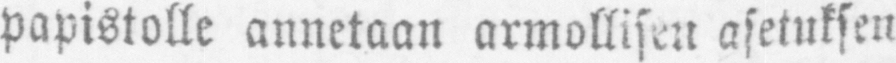papistolle annetaan armollisen asetuksen
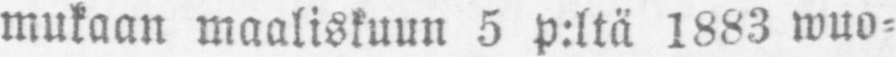mukaan maaliskuun 5 p:ltä 1883 wuo-
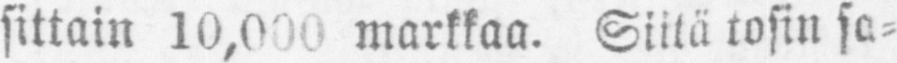sittain 10,000 markkaa. Siitä tosin sa-
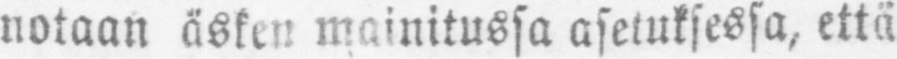notaan äsken mainitussa asetuksessa, että
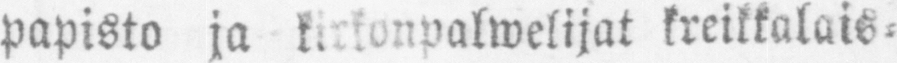papisto ja kirkonpalwelijat kreikkalais-
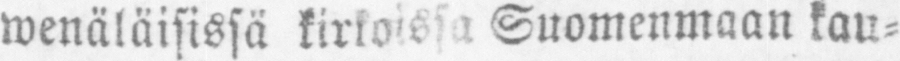wenäläisissä kirkoissa Suomenmaan kau-
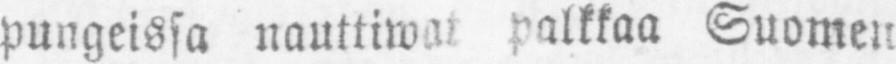pungeissa nauttiwat palkkaa Suomen
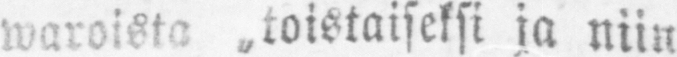yleisistä waroista „toistaiseksi ja niin
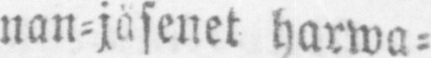kauan kuin seurakunnan-jäsenet harwa-
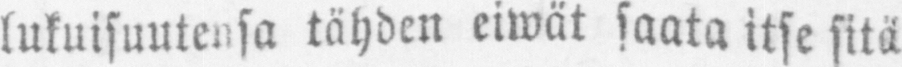lukuisuutensa tähden eiwät saata itse sitä
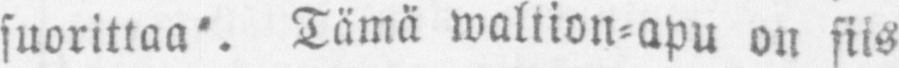suorittaa". Tämä waltion-apu on siis
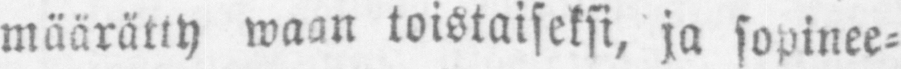määrätty waan toistaiseksi, ja sopinee-
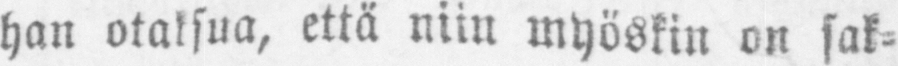han otaksua, että niin myöskin on sak-
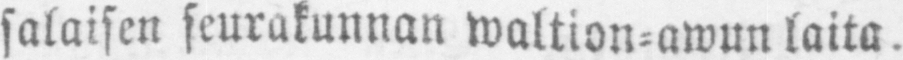salaisen seurakunnan waltion-awun laita.
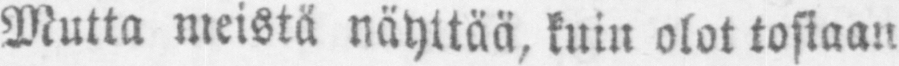Mutta meistä näyttää, kuin olot tosiaan
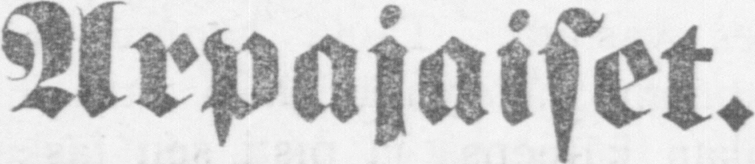Arpajaiset.
